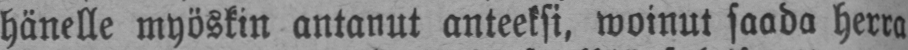hänelle myöskin antanut anteeksi, woinut saada herra
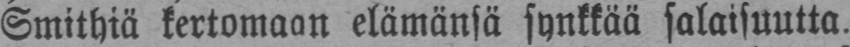Smithiä kertomaan elämänsä synkkää salaisuutta.
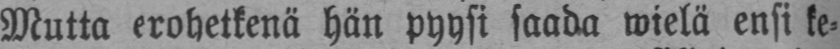Mutta erohetkenä hän pyysi saada wielä ensi ke-
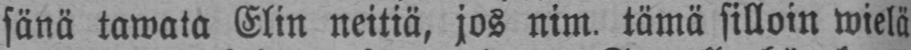sänä tawata Elin neitiä, jos nim. tämä silloin wielä
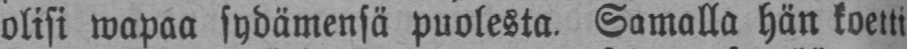olisi wapaa sydämensä puolesta. Samalla hän koetti
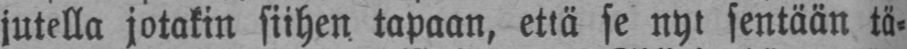jutella jotakin siihen tapaan, että se nyt sentään tä-
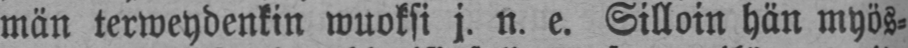män terweydenkin wuoksi j. n. e. Silloin hän myös-
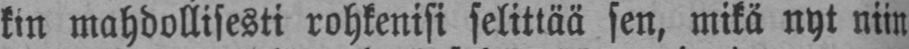kin mahdollisesti rohkenisi selittää sen, mikä nyt niin
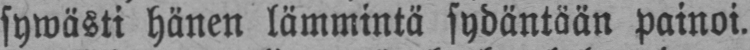sywästi hänen lämmintä sydäntään painoi.
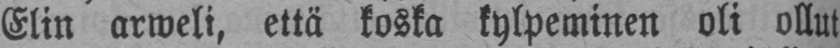Elin arweli, että koska kylpeminen oli ollut
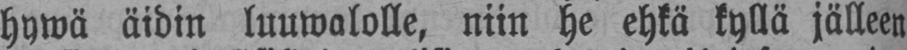hywä äidin luuwalolle, niin he ehkä kyllä jälleen
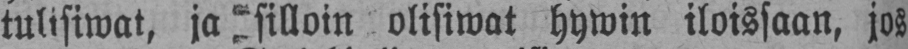tulisiwat, ja silloin olisiwat hywin iloissaan, jos
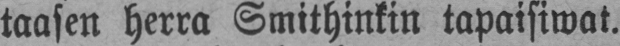taasen herra Smithinkin tapaisiwat.
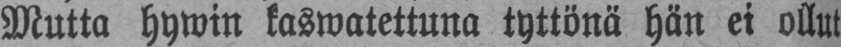Mutta hywin kaswatettuna tyttönä hän ei ollut
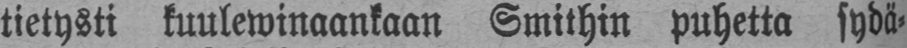tietysti kuulewinaankaan Smithin puhetta sydä-
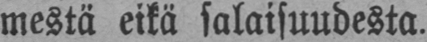mestä eikä salaisuudesta.
